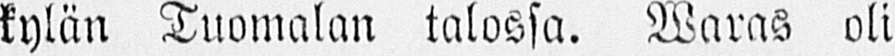kylän Tuomalan talossa. Waras oli
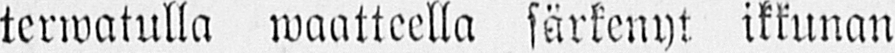terwatulla waatteella särkenyt ikkunan
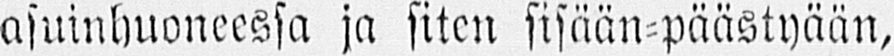asuinhuoneessa ja siten sisään-päästyään,
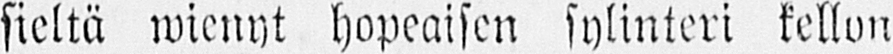sieltä wienyt hopeaisen sylinteri kellon
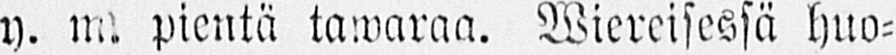y. m pientä tawaraa. Wiereisessä huo-
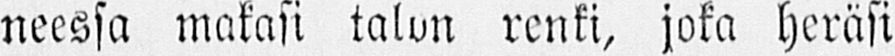neessa makasi talon renki, joka heräsi
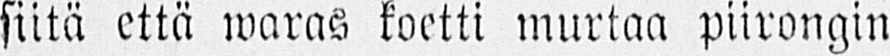siitä että waras koetti murtaa piirongin
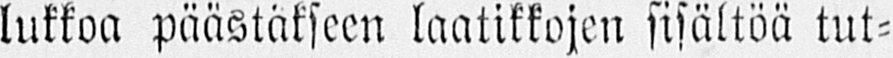lukkoa päästäkseen laatikkojen sisältöä tut-
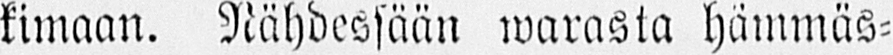kimaan. Nähdessään warasta hämmäs-
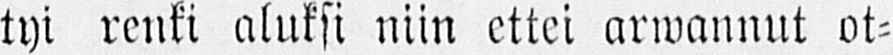tyi renki aluksi niin ettei arwaunut ot-
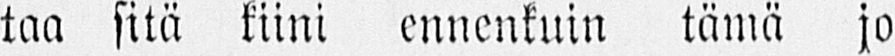taa sitä kiini ennenkuin tämä jo
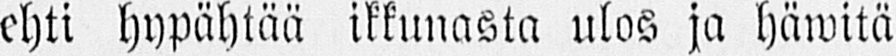ehti hypähtää ikkunasta ulos ja häwitä
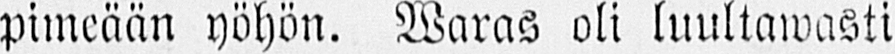pimeään yöhön. Waras oli luultawasti
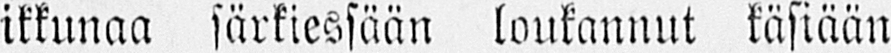ikkunaa särkiessään loukannut käsiään
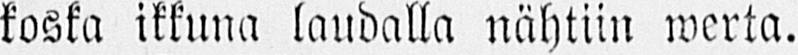koska ikkuna laudalla nähtiin werta.
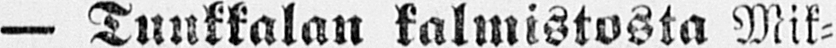— Tuukkalan kalmistosta Mik-
